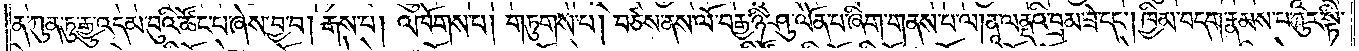ན་ཀུན་ཏུ་རྒྱུ་འདམ་བུའི་ཚོང་པ་ཞེས་བྱ་བ། རྒས་པ། འཁོགས་པ། གཏུགས་པ། བཙས་ནས་ལོ་བརྒྱ་ཉི་ཤུ་ལོན་པ་ཞིག་གནས་པ་ལ། ནཱ་ལནདའི་བྲམ་ཟེ་དང༌། ཁྱིམ་བདག་རྣམས་པ་ཀུར་སྟི་
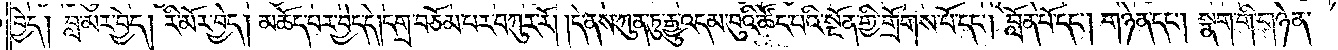བྱེད། བླ་མར་བྱེད། རི་མོར་བྱེད། མཆོད་པར་བྱེད་དེ། དགྲ་བཅོམ་པར་བཀུར་རོ། །དེ་ནས་ཀུན་ཏུ་རྒྱུ་འདམ་བུའི་ཚོང་པའི་སྔོན་གྱི་གྲོགས་པོ་དང༌། བློན་པོ་དང༌། གཉེན་དང༌། སྣག་གི་གཉེན་
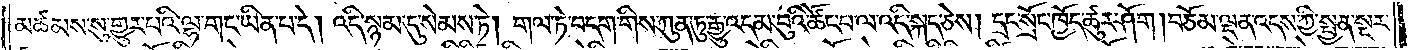མཚམས་སུ་གྱུར་པའི་ལྷ་གང་ཡིན་པ་དེ། འདི་སྙམ་དུ་སེམས་ཏེ། གལ་ཏེ་བདག་གིས་ཀུན་ཏུ་རྒྱུ་འདམ་བུའི་ཚོང་པ་ལ་འདི་སྐད་ཅེས། དྲང་སྲོང་ཁྱོད་ཚུར་ཤོག །བཅོམ་ལྡན་འདས་ཀྱི་སྤྱན་སྔར་
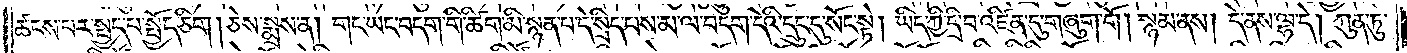ཚངས་པར་སྤྱད་པ་སྤྱོད་ཅིག །ཅེས་སྨྲས་ན། གང་ཡང་བདག་གི་ཚིག་མི་སྙན་པ་དེ་སྲིད་པས་མ་ལ་བདག་དེའི་དྲུང་དུ་སོང་སྟེ། ཡིད་ཀྱི་དྲི་བ་འཛིན་དུ་གཞུག་གོ །སྙམ་ནས། དེ་ནས་ལྷ་དེ། ཀུན་ཏུ་
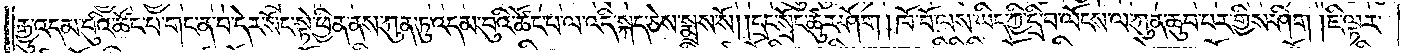རྒྱུ་འདམ་བུའི་ཚོང་པ་གང་ན་བ་དེར་སོང་སྟེ་ཕྱིན་ནས་ཀུན་ཏུ་འདམ་བུའི་ཚོང་པ་ལ་འདི་སྐད་ཅེས་སྨྲས་སོ། །དྲང་སྲོང་ཚུར་ཤོག །ཁོ་བོ་ལས་ཡིད་ཀྱི་དྲི་བ་ལོངས་ལ་ཀུན་ཆུབ་པར་གྱིས་ཤིག །ཇི་ལྟར་
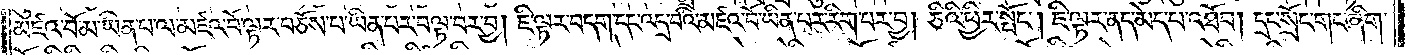མཛའ་བོ་མ་ཡིན་པ་ལ་མཛའ་བོ་ལྟར་བཅོས་པ་ཡིན་པར་བལྟ་བར་བྱ། ཇི་ལྟར་བདག་དང་འདྲ་བའི་མཛའ་བོ་ཡིན་པར་རིག་པར་བྱ། ཅིའི་ཕྱིར་སྤོང༌། ཇི་ལྟར་ནད་མེད་པ་འཐོབ། དྲང་སྲོང་གང་ཞིག་
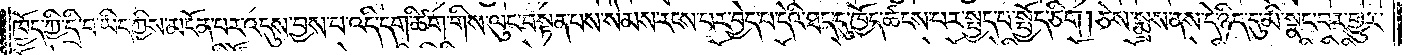ཁྱོད་ཀྱི་དྲི་བ་ཡིད་ཀྱིས་མངོན་པར་འདུས་བྱས་པ་འདི་དག་ཚིག་གིས་ལུང་བསྟན་པས་སེམས་རངས་པར་བྱེད་པ་དེའི་ཐད་དུ་ཁྱོད་ཚངས་པར་སྤྱད་པ་སྤྱོད་ཅིག །ཅེས་སྨྲས་ནས་དེ་ཉིད་དུ་མི་སྣང་བར་གྱུར་
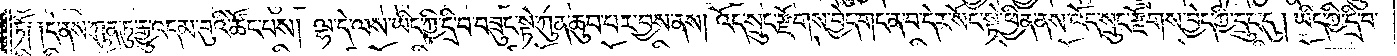ཏོ༑ ༑དེ་ནས་ཀུན་ཏུ་རྒྱུ་འདམ་བུའི་ཚོང་པས། ལྷ་དེ་ལས་ཡིད་ཀྱི་དྲི་བ་བཟུང་སྟེ་ཀུན་ཆུབ་པར་བྱས་ནས། འོད་སྲུང་རྫོགས་བྱེད་གང་ན་བ་དེར་སོང་སྟེ་ཕྱིན་ནས་འོད་སྲུང་རྫོགས་བྱེད་ཀྱི་དྲུང་དུ། ཡིད་ཀྱི་དྲི་བ་
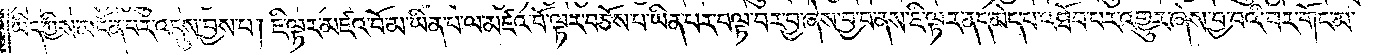ཡིད་ཀྱིས་མངོན་པར་འདུས་བྱས་པ། ཇི་ལྟར་མཛའ་བོ་མ་ཡིན་པ་ལ་མཛའ་བོ་ལྟར་བཅོས་པ་ཡིན་པར་བལྟ་བར་བྱ་ཞེས་བྱ་བ་ནས་ཇི་ལྟར་ནད་མེད་པ་འཐོབ་པར་འགྱུར་ཞེས་བྱ་བའི་བར་གོང་མ་
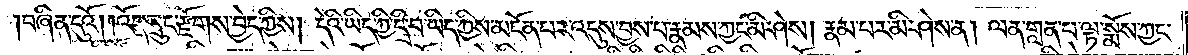བཞིན་དུའོ། །འོད་སྲུང་རྫོགས་བྱེད་ཀྱིས། དེའི་ཡིད་ཀྱི་དྲི་བ་ཡིད་ཀྱིས་མངོན་པར་འདུས་བྱས་པ་རྣམས་ཀྱང་མི་ཤེས། རྣམ་པར་མི་ཤེས་ན། ལན་གླན་པ་ལྟ་སྨོས་ཀྱང་
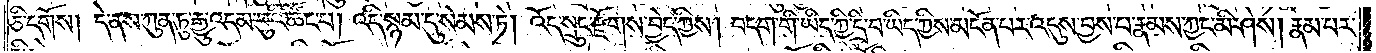ཅི་དགོས། དེ་ནས་ཀུན་ཏུ་རྒྱུ་འདམ་བུའི་ཚོང་པ། འདི་སྙམ་དུ་སེམས་ཏེ། འོད་སྲུང་རྫོགས་བྱེད་ཀྱིས། བདག་གི་ཡིད་ཀྱི་དྲི་བ་ཡིད་ཀྱིས་མངོན་པར་འདུས་བྱས་པ་རྣམས་ཀྱང་མི་ཤེས། རྣམ་པར་
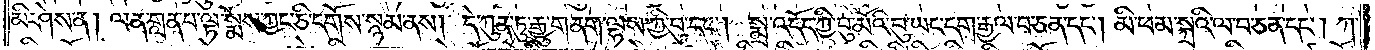མི་ཤེས་ན། ལན་གླན་པ་ལྟ་སྨོས་ཀྱང་ཅི་དགོས་སྙམ་ནས། དེ་ཀུན་ཏུ་རྒྱུ་གནག་ལྷས་ཀྱི་བུ་དང༌། སྨྲ་འདོད་ཀྱི་བུ་མོའི་བུ་ཡང་དག་རྒྱལ་བ་ཅན་དང༌། མི་ཕམ་སྐྲའི་ལ་བ་ཅན་དང༌། ཀ་
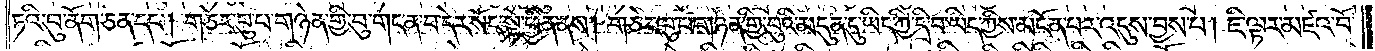ཏའི་བུ་ནོག་ཅན་དང༌། གཅེར་བུ་པ་གཉེན་གྱི་བུ་གང་ན་བ་དེར་སོང་སྟེ་ཕྱིན་ནས། གཅེར་བུ་པ་གཉེན་གྱི་བུའི་མདུན་དུ་ཡིད་ཀྱི་དྲི་བ་ཡིད་ཀྱིས་མངོན་པར་འདུས་བྱས་པ། ཇི་ལྟར་མཛའ་བོ་
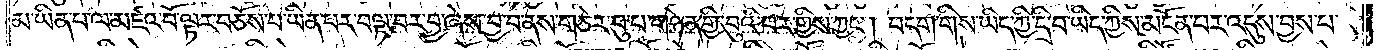མ་ཡིན་པ་ལ་མཛའ་བོ་ལྟར་བཅོས་པ་ཡིན་པར་བལྟ་བར་བྱ་ཞེས་བྱ་བ་ནས་གཅེར་བུ་པ་གཉེན་གྱི་བུའི་བར་གྱིས་ཀྱང༌། བདག་གིས་ཡིད་ཀྱི་དྲི་བ་ཡིད་ཀྱིས་མངོན་པར་འདུས་བྱས་པ་
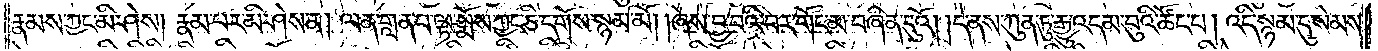རྣམས་ཀྱང་མི་ཤེས། རྣམ་པར་མི་ཤེས་ན། ལན་གླན་པ་ལྟ་སྨོས་ཀྱང་ཅི་དགོས་སྙམ་མོ། །ཞེས་བྱ་བའི་བར་གོང་མ་བཞིན་དུའོ། །དེ་ནས་ཀུན་ཏུ་རྒྱུ་འདམ་བུའི་ཚོང་བ། འདི་སྙམ་དུ་སེམས་
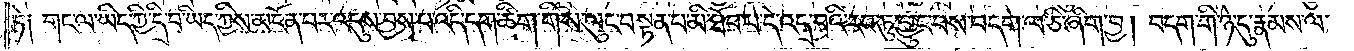ཏེ། གང་ལ་ཡིད་ཀྱི་དྲི་བ་ཡིད་ཀྱིས་མངོན་པར་འདུས་བྱས་པ་འདི་དག་ཚིག་གིས་ལུང་བསྟན་པ་མི་ཐོབ་པ་དེ་འདྲ་བའི་རབ་ཏུ་བྱུང་བས་བདག་ལ་ཅི་ཞིག་བྱ། བདག་གི་ཉེ་དུ་རྣམས་ལ་
